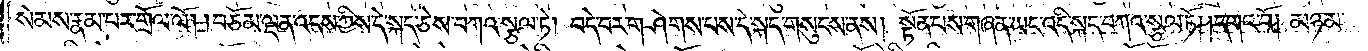སེམས་རྣམ་པར་གྲོལ་ལོ། །བཅོམ་ལྡན་འདས་ཀྱིས་དེ་སྐད་ཅེས་བཀའ་སྩལ་ཏེ། བདེ་བར་གཤེགས་པས་དེ་སྐད་གསུངས་ནས། སྟོན་པས་གཞན་ཡང་འདི་སྐད་བཀའ་སྩལ་ཏོ། །དགའ་བོ། མཉམ་
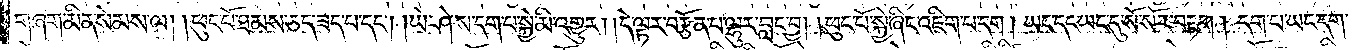གཞག་མིན་སེམས་ལ། །ཕུང་པོ་ཐམས་ཅད་ཟད་པ་དང༌། ཡེ་ཤེས་དག་པ་སྐྱེ་མི་འགྱུར། །དེ་ལྟར་བརྩོན་པ་ལྷུར་བླང་བྱ། །ཕུང་པོ་སྐྱེ་ཞིང་འཇིག་པ་དག །ཡང་དང་ཡང་དུ་སོ་སོར་བརྟག །དག་པ་ཡང་དག་
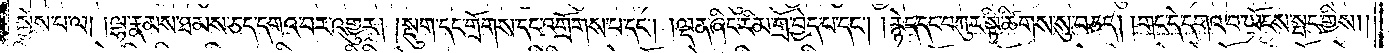སྐྱེས་པ་ལ། །ལྷ་རྣམས་ཐམས་ཅད་དགའ་བར་འགྱུར། །སྡུག་དང་གྲོགས་དང་འགྲོགས་པ་དང༌། །ལྡན་ཞིང་རིམ་གྲོ་བྱེད་པ་དང༌། །རྙེད་དང་བཀུར་སྟི་ཚིགས་སུ་བཅད། །གང་དེ་དགའ་བ་ཡོངས་སྤང་གྱིས། །
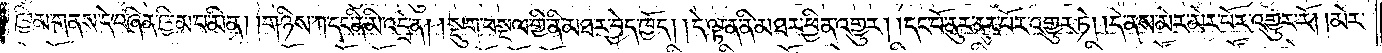ཁྱིམ་གནས་དེ་བཞིན་ཁྱིམ་པ་མིན། །གཉིས་ཀ་དང་ནི་མི་འདྲེན། །སྡུག་བསྔལ་གྱི་ནི་མཐར་བྱེད་ཁྱོད། །དེ་ལྟ་ན་ནི་མཐར་ཕྱིན་འགྱུར། །དང་པོ་ནུར་ནུར་པོར་འགྱུར་ཏེ། །དེ་ནས་མེར་མེར་པོར་འགྱུར་རོ། །མེར་
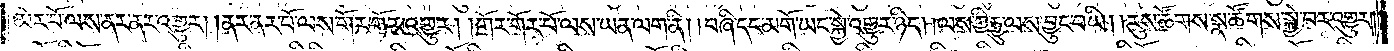མེར་པོ་ལས་ནར་ནར་འགྱུར། །ནར་ནར་པོ་ལས་གོར་གོར་འགྱུར། །གོར་གོར་པོ་ལས་ཡན་ལག་ནི། །བཞི་དང་མགོ་ཡང་སྐྱེ་འགྱུར་ཉིད། །ལས་ཀྱི་རྒྱུ་ལས་བྱུང་བ་ཡི། །རུས་ཚོགས་སྣ་ཚོགས་སྐྱེ་བར་འགྱུར་
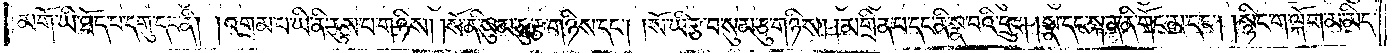མགོ་ཡི་ཐོད་པ་དགུ་དང་ནི། །འགྲམ་པ་ཡི་ནི་རུས་པ་གཉིས། །སོ་ནི་སུམ་ཅུ་རྩ་གཉིས་དང༌། །སོ་ཡི་རྩ་བ་སུམ་ཅུ་གཉིས། །མགྲིན་པ་དང་ནི་སྣ་བའི་དྲུང༌། །སྣ་དང་སྐན་ནི་གོང་མ་དང༌། །སྙིང་ག་ལྐོག་མ་མིད།
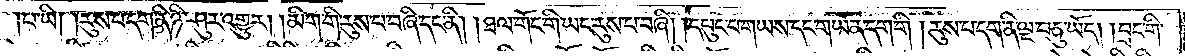།པ་ཡི། །རུས་པ་དག་ནི་ཉི་ཤུར་འགྱུར། །མིག་གི་རུས་པ་བཞི་དང་ནི། །ཐལ་གོང་གི་ཡང་རུས་པ་བཞི། །དཔུང་པ་གཡས་དང་གཡོན་དག་གི །རུས་པ་དག་ནི་ལྔ་བཅུ་ཡོད། །བྲང་གི་
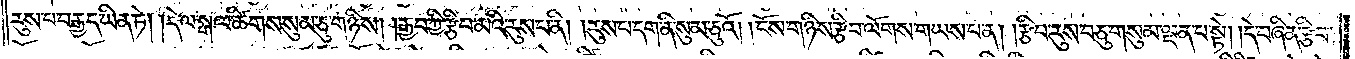རུས་པ་བརྒྱད་ཡིན་ཏེ། །དེ་ལ་སྒལ་ཚིགས་སུམ་ཅུ་གཉིས། །རྒྱབ་ཀྱི་རྩིབ་མའི་རུས་པ་ནི། །རུས་པ་དག་ནི་སུམ་ཅུའོ། །ངོས་གཉིས་རྩིབ་ལོགས་གཡས་པ་ན། །རྩིབ་རུས་བཅུ་གསུམ་ལྡན་པ་སྟེ། །དེ་བཞིན་རྩིབ་
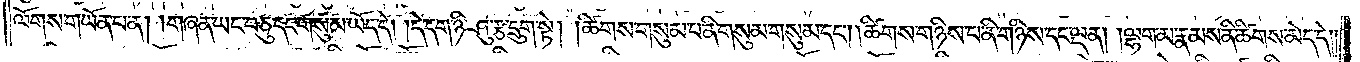ལོགས་གཡོན་པ་ན། །གཞན་ཡང་བཅུ་དང་གསུམ་ཡོད་དེ། །དེ་དག་ཉི་ཤུ་རྩ་དྲུག་སྟེ། །ཚིགས་གསུམ་པ་ནི་གསུམ་གསུམ་དང༌། །ཚིགས་གཉིས་པ་ནི་གཉིས་དང་ལྡན། །ལྷག་མ་རྣམས་ནི་ཚིགས་མེད་དེ། །
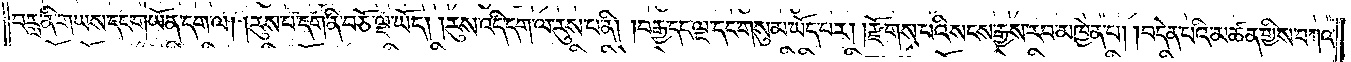བརླ་ནི་གཡས་དང་གཡོན་དག་ལ། །རུས་པ་དག་ནི་བཅོ་ལྔ་ཡོད། །རུས་འདི་དག་ལ་རུས་པ་ནི། །བརྒྱ་དང་ལྔ་དང་གསུམ་ཡོད་པར། །རྫོགས་པའི་སངས་རྒྱས་རབ་མཁྱེན་པ། །བདེན་པའི་མཚན་གྱིས་བཀའ་
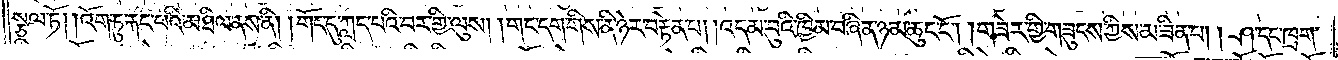སྩལ་ཏོ། །འོག་ཏུ་རྐང་པའི་མཐིལ་ནས་ནི། །གོང་དུ་ཀླད་པའི་བར་གྱི་ལུས། །གང་དག་གིས་ནི་ཉེར་བརྟེན་པ། །འདམ་བུའི་ཁྱིམ་བཞིན་ཉམ་ཆུང་ངོ༌། །གཟེར་གྱི་གཟུངས་ཀྱིས་མ་ཟིན་པ། །ཤ་དང་ཁྲག་
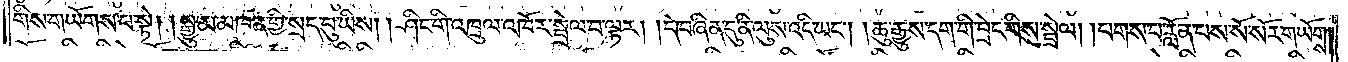གིས་གཡོགས་པ་སྟེ། །རྒྱུ་མ་མཁན་གྱི་སྲད་བུ་ཡིས། །ཤིང་གི་འཁྲུལ་འཁོར་སྦྲེལ་བ་ལྟར། །དེ་བཞིན་དུ་ནི་ལུས་འདི་ཡང༌། །ཆུ་རྒྱུས་དག་གི་བྲེང་གིས་སྦྲེལ། །པགས་པ་རློན་པས་སོ་སོར་གཡོགས་
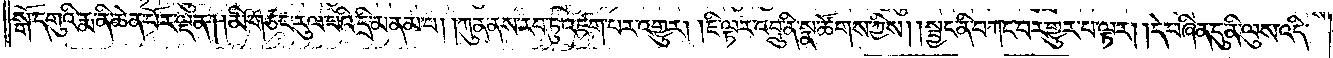སྒོ་དགུའི་རྨ་ནི་ཆེན་པོར་ལྡན། །མི་གཙང་རུལ་བའི་དྲི་མནམ་པ། །ཀུན་ནས་རབ་ཏུ་འཛག་པར་འགྱུར། །ཇི་ལྟར་འབྲུ་ནི་སྣ་ཚོགས་ཀྱིས། །སྦྱང་ནི་བཀང་བར་གྱུར་པ་ལྟར། །དེ་བཞིན་དུ་ནི་ལུས་འདི་
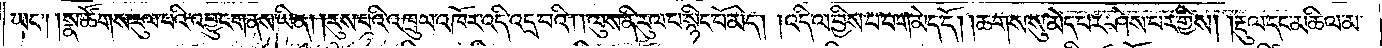ཡང༌། །སྣ་ཚོགས་རུལ་པའི་འབྱུང་གནས་ཡིན། །རུས་པའི་འཁྲུལ་འཁོར་འདི་འདྲ་བའི། །ལུས་ནི་རུལ་པ་སྙིང་པོ་མེད། །འདི་ལ་བྱིས་པ་བག་མེད་དོ། །ཆགས་སུ་མེད་པར་ཤེས་པར་གྱིས། །རྡུལ་དང་མཆིལ་མ་
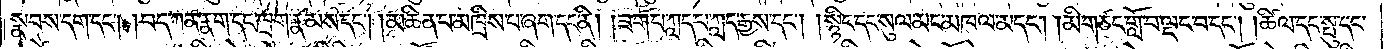སྣབས་དག་དང༌། བད་ཀན་རྣག་དང་ཁྲག་རྣམས་དང༌། །མཆིན་པ་མཁྲིས་པ་ཞག་དང་ནི། །ཟག་པ་ཀླད་པ་ཀླད་རྒྱས་དང༌། །སྙིང་དང་སུལ་མང་མཁལ་མདང༌། །མི་གཙང་གློ་བ་ལྡང་བ་དང༌། །ཚིལ་དང་སྤུ་དང་
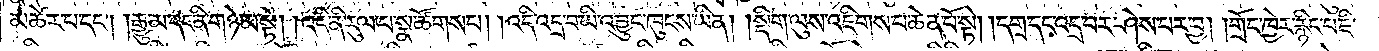མཚེར་པ་དང༌། །རྒྱུ་མ་དང་ནི་གཉེ་མ་སྟེ། །འདི་ནི་རུལ་བ་སྣ་ཚོགས་པ། །འདི་འདྲ་བ་ཡི་འབྱུང་ཁུངས་ཡིན། །སྡིག་ལུས་འཇིགས་པ་ཆེན་པོ་སྟེ། །དགྲ་དང་འདྲ་བར་ཤེས་པར་བྱ། །གྲོང་ཁྱེར་རྙིང་པ་ཇི་
